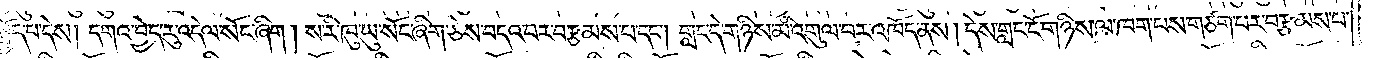རྟ་སྤྱོད་པ་དེས། དགའ་བྱེད་རུ་འདེལ་སོང་ཞིག །ས་རི་ཁུ་ཡུ་སོང་ཞིག་ཅེས་བདའ་བར་བརྩམས་པ་དང༌། གླང་དེ་གཉིས་མི་འགུལ་བར་འཁོད་ནས། དེས་གླང་ངོ་གཉིས་ལ་ཁག་པས་གཙག་པར་བརྩམས་པ་
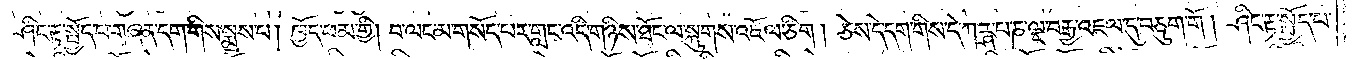དང༌། ཤིང་རྟ་སྤྱོད་པ་གཞན་དག་གིས་སྨྲས་པ། ཁྱོད་ཕམ་གྱི། བ་ལང་མ་གསོད་པར་གླང་འདི་གཉིས་ཐོང་ལ་སྐུགས་འཇོལ་ཅིག། ཅེས་དེ་དག་གིས་དེ་ཀཪྴ་པ་ཎ་ལྔ་བརྒྱ་འཇལ་དུ་བཅུག་གོ། ཤིང་རྟ་སྤྱོད་པ་
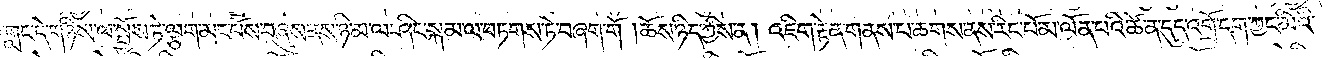དེས་གླང་དེ་གཉིས་ལ་སྤྱོས་ཏེ་ལྕག་མང་པོས་བཞུས་ནས་ཉི་མ་ལ་ཤིང་སྐམ་ལ་བཏགས་ཏེ་བཞག་གོ །ཆོས་ཉིད་ཀྱིས་ན། འཇིག་རྟེན་གནས་པ་ཆགས་ནས་རིང་པོ་མ་ལོན་པའི་ཚེ་ན་དུད་འགྲོ་དག་ཀྱང་མིའི་
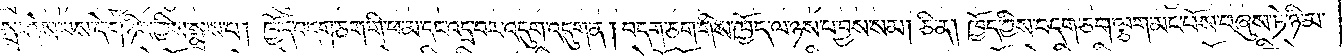སྐད་སྨྲ་ཤེས་པས་དེ་གཉིས་ཀྱིས་སྨྲས་པ། ཁྱོད་བདག་ཅག་གི་ཕ་མ་དང་འདྲ་བར་འདུག་འདུག་ན། བདག་ཅག་གིས་ཁྱོད་ལ་ཉས་པ་བྱས་སམ། ཅི་ན། ཁྱོད་ཀྱིས་བདག་ཅག་ལྕག་མང་པོས་བཞུས་ཏེ་ཉི་མ་
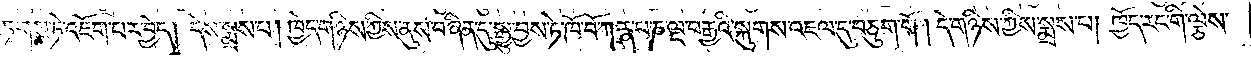ལ་ཤིང་སྐམ་ལ་བཏགས་ཏེ་འཇོག་པར་བྱེད། དེས་སྨྲས་པ། ཁྱེད་གཉིས་ཀྱིས་ནུས་བཞིན་དུ་སྒྱུ་བྱས་ཏེ་ཁོ་བོ་ཀཪྴ་པ་ཎ་ལྔ་བརྒྱའི་སྐུགས་འཇལ་དུ་བཅུག་གོ །དེ་གཉིས་ཀྱིས་སྨྲས་པ། ཁྱོད་རང་གི་ལྕེས་
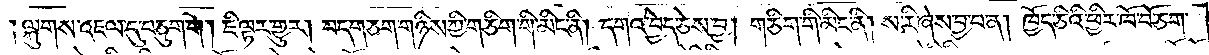ལྐུགས་འཇལ་དུ་བཅུག་གོ །ཇི་ལྟར་གྱུར། བདག་ཅག་གཉིས་ཀྱི་གཅིག་གི་མིང་ནི། དགའ་བྱེད་ཅེས་བྱ། གཅིག་གི་མིང་ནི། ས་རི་ཞེས་བྱ་བ་ན། ཁྱོད་ཅིའི་ཕྱིར་ཁོ་བོ་ཅག་
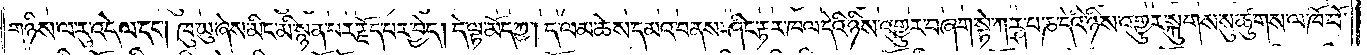གཉིས་ལ་རུ་འདེལ་དང༌། ཁུ་ཡུ་ཞེས་མིང་མི་སྙན་པར་རྗོད་པར་བྱེད། དེ་ལྟ་མོད་ཀྱ། ད་ལམ་ཆེས་དམའ་བ་ནས་ཤིང་རྟར་ཁལ་དེའི་ཉིས་འགྱུར་བཞག་སྟེ་ཀརྴ་པ་ཎ་དེའི་ཉིས་འགྱུར་སྐུགས་སུ་ཚུགས་ལ་ཁོ་བོ་
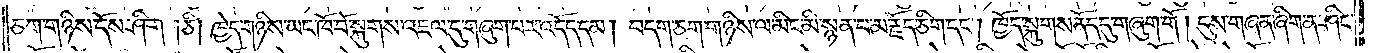ཅག་གཉིས་དོས་ཤིག །ཅི། ཁྱེད་གཉིས་ཡང་ཁོ་བོ་སྐུགས་འཇལ་དུ་གཞུག་པར་འདོད་དམ། བདག་ཅག་གཉིས་ལ་མིང་མི་སྙན་པ་མ་རྗོད་ཅིག་དང༌། ཁྱོད་སྐུགས་ནོད་དུ་གཞུག་གོ། དུས་གཞན་ཞིག་ན་ཤིང་
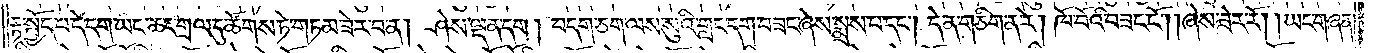རྟ་སྤྱོད་པ་དེ་དག་ཡང་ཆང་གྲལ་དུ་ཚོགས་ཏེ་གཏམ་ཟེར་བ་ན། ཤེས་ལྡན་དག། བདག་ཅག་ལས་སུའི་གླང་དག་བཟང་ཞེས་སྨྲས་པ་དང༌། དེ་ན་གཅིག་ན་རེ། ཁོ་བོའི་བཟང་ངོ༌། །ཞེས་ཟེར་རོ། །ཡང་གཞན་
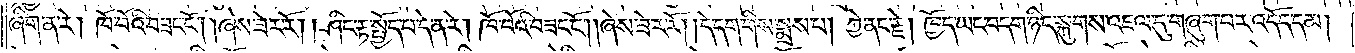ཞིག་ན་རེ། ཁོ་བོའི་བཟང་ངོ༌། །ཞེས་ཟེར་རོ། །ཤིང་རྟ་སྤྱོད་པ་དེ་ན་རེ། ཁོ་བོའི་བཟང་ངོ༌། །ཞེས་ཟེར་རོ། །དེ་དག་གིས་སྨྲས་པ། ཀྱེ་ནང་རྗེ། ཁྱོད་ཡང་བདག་ཉིད་སྐུགས་འཇལ་དུ་གཞུག་པར་འདོད་དམ།
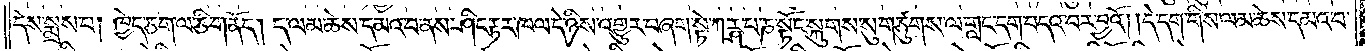དེས་སྨྲས་པ། ཁྱེད་ཅག་ལ་ཅི་གནོད། ད་ལམ་ཆེས་དམའ་བ་ནས་ཤིང་རྟར་ཁལ་དེ་ཉིས་འགྱུར་བཞག་སྟེ་ཀྴ་པ་ཎ་སྟོང་སྐུགས་སུ་གཅུགས་ལ་གླང་དག་བདའ་བར་བྱའོ། །དེ་དག་གིས་ལམ་ཆེས་དམའ་བ་
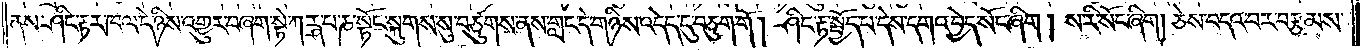ནས་ཤིང་རྟར་ཁལ་དེ་ཉིས་འགྱུར་བཞག་སྟེ་ཀརྴ་པ་ཎ་སྟོང་སྐུགས་སུ་བཙུགས་ནས་གླང་དེ་གཉིས་འདེད་དུ་བཅུག་གོ། ཤིང་རྟ་སྤྱོད་པ་དེས་དགའ་བྱེད་སོང་ཞིག། ས་རི་སོང་ཞིག། ཅེས་བདའ་བར་བརྩམས་
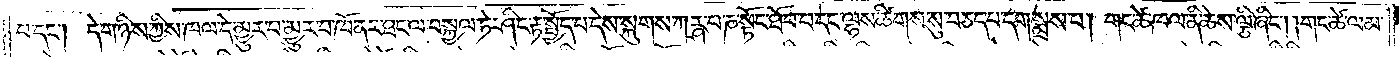པ་དང༌། དེ་གཉིས་ཀྱིས་ཁལ་དེ་མྱུར་བ་མྱུར་བ་ཁོ་ནར་ཐང་ལ་བསྐྱལ་ཏེ་ཤིང་རྟ་སྤྱོད་པ་དེས་སྐུགས་ཀརྴ་པ་ཎ་སྟོང་ཐོབ་པ་དང་ལྷས་ཚིགས་སུ་བཅད་པ་དག་སྨྲས་པ། གང་ཚེ་ཁལ་ནི་ཆེས་ལྕི་ཞིང༌། གང་ཚེ་ལམ་
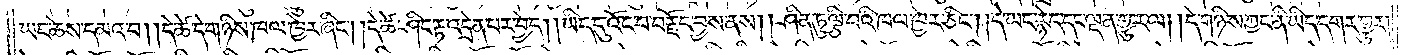ཡང་ཆེས་དམའ་བ། །དེ་ཚེ་དེ་གཉིས་ཁལ་ཁྱེར་ཞིང༌། །དེ་ཚེ་ཤིང་རྟ་འདྲེན་པར་བྱེད། །ཡིད་དུ་འོང་བ་བརྗོད་བྱས་ནས། །ཤིན་ཏུ་ལྕི་བའི་ཁལ་ཁྱེར་ཅིང༌། །དེ་ཡང་རྙེད་དང་ལྡན་གྱུར་ལ། །དེ་གཉིས་ཀྱང་ནི་ཡིད་དགར་གྱུར།
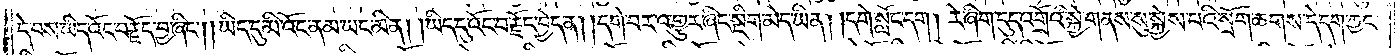དེ་བས་ཡིད་འོང་བརྗོད་བྱ་ཞིང༌། །ཡིད་དུ་མི་འོང་ནམ་ཡང་མིན། །ཡིད་དུ་འོང་བརྗོད་བྱེད་ན། །དགེ་བར་འགྱུར་ཞིང་སྡིག་མེད་ཡིན། །དགེ་སློང་དག། རེ་ཞིག་དུད་འགྲོའི་སྐྱེ་གནས་སུ་སྐྱེས་པའི་སྲོག་ཆགས་དེ་དག་ཀྱང་
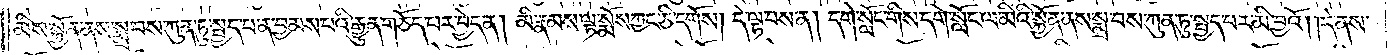མིས་སྐྱོན་ནས་སྨྲ་བས་ཀུན་ཏུ་སྤྱད་པ་ན་བྱམས་པའི་རྒྱུན་གཅོད་པར་བྱེད་ན། མི་རྣམས་ལྟ་སྨོས་ཀྱང་ཅི་དགོས། དེ་ལྟ་བས་ན། དགེ་སློང་གིས་དགེ་སློང་ལ་མིའི་སྐྱོན་ནས་སྨྲ་བས་ཀུན་ཏུ་སྤྱད་པར་མི་བྱའོ། །དེ་ནས་
